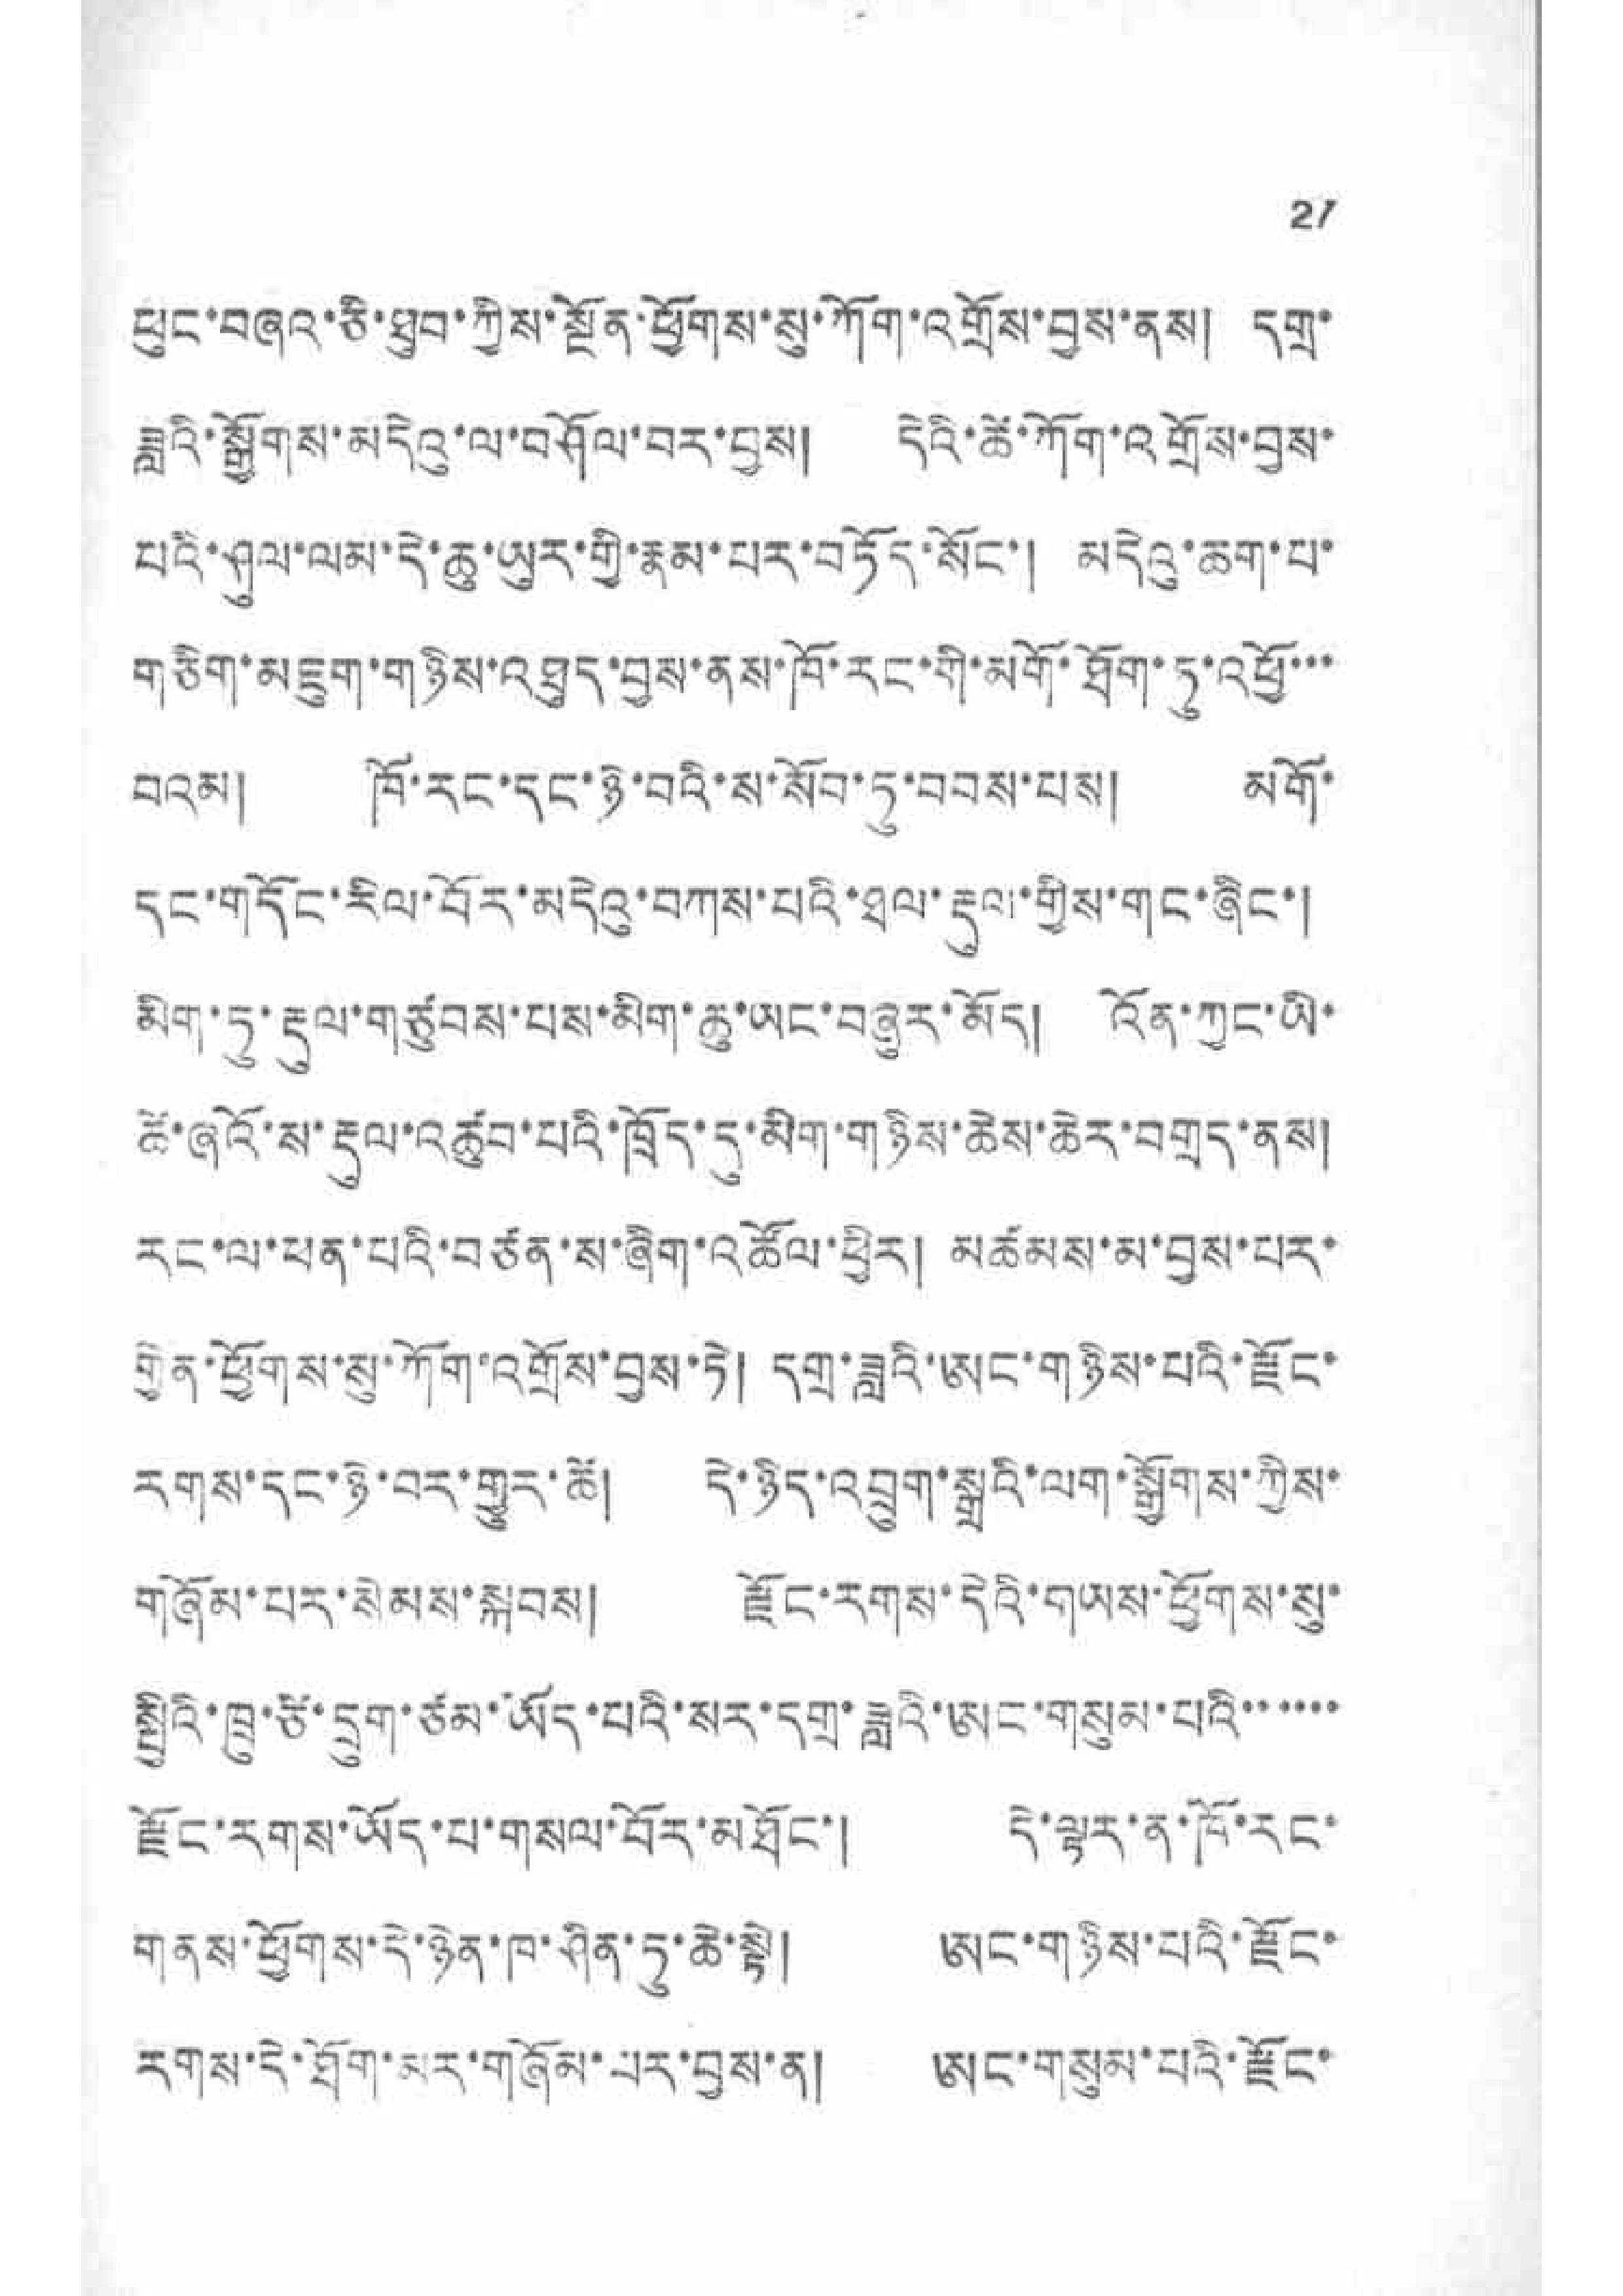21
ཕུང་བཞའ་ཅི་ཐུབ་ཀྱིས་སྔོན་ཕྱོགས་སུ་ཀོག་འགྲོས་བྱས་ནས། དགྲ་
ཟླའི་སྒྱོགས་མདེའུ་ལ་བཤོལ་བར་བྱས། དེའི་ཚེ་ཀོག་འགྲོས་བྱས་
པའི་ཤུལ་ལམ་དེ་ཆུ་ཡུར་གྱི་རྣམ་པར་བཏོད་སོང་། མདེའུ་ཆག་པ་
གཅིག་མཇུག་གཉིས་འཐུད་བྱས་ནས་ཁོ་རང་གི་མགོ་ཐོག་ཏུ་འཕྱོ་་་
བའམ། ཁོ་རང་དང་ཉེ་བའི་ས་སོབ་ཏུ་བབས་པས། མགོ་
དང་གདོང་རིལ་བོར་མདེའུ་བཀས་པའི་ཐལ་རྡུལ་གྱིས་གང་ཞིང་།
མིག་ཏུ་རྡུལ་གཙུབས་པས་མིག་ཆུ་ཡང་བཞུར་མོད། འོན་ཀྱང་ཡི་
ཚེ་ཞའོ་ས་རྡུལ་འཚུབ་པའི་ཁྲོད་དུ་མིག་གཉིས་ཆེས་ཆེར་བགྲད་ནས།
རང་ལ་ཕན་པའི་བཙན་ས་ཞིག་འཚོལ་ཕྱིར། མཚམས་མ་བྱས་པར་
གྱེན་ཕྱོགས་སུ་ཀོག་འགྲོས་བྱས་ཏེ། དགྲ་ཟླའི་ཨང་གཉིས་པའི་རྫོང་
རགས་དང་ཉེ་བར་གྱུར་ཚེ། དེ་ཉིད་འབྲུག་སྒྲའི་ལག་སྒྱོགས་ཀྱིས་
གཞོམ་པར་སེམས་སྐབས། རྫོང་རགས་དེའི་གཡས་ཕྱོགས་སུ་
སྤྱིའི་ཁྲུ་ཙི་དྲུག་ཙམ་ཡོད་པའི་སར་དགྲ་ཟླའི་ཨང་གསུམ་པའི་་་་་་
རྫོང་རགས་ཡོད་པ་གསལ་བོར་མཐོང་། དེ་ལྟར་ན་ཁོ་རང་
གནས་ཕྱོགས་དེ་ཉེན་ཁ་ཤིན་ཏུ་ཆེ་སྟེ། ཨང་གཉིས་པའི་རྫོང་
རགས་དེ་ཐོག་མར་གཞོམ་པར་བྱས་ན། ཨང་གསུམ་པའི་རྫོང་
